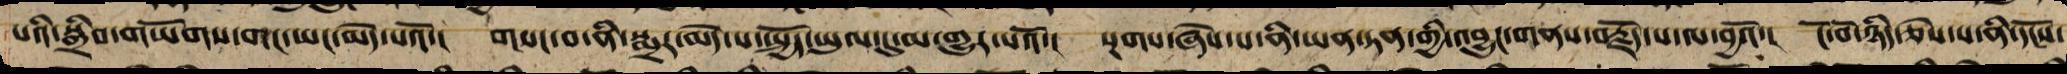པའི་སྒྲིབ་གཡོགས་གང་ཡང་མེད་པའོ་། གསང་བ་ནི་སྨྲར་མེད་པ་སྤྱོད་ཡུལ་དུ་མ་གྱུར་པའོ་། སྔགས་ཞེས་པ་ནི་ཡན་ཏན་གྱི་འབྱུང་གནས་བརྗོད་པ་ལ་བྱའོ་། ངོ་བོ་ཉིད་ཅེས་པ་ནི་དངོས་
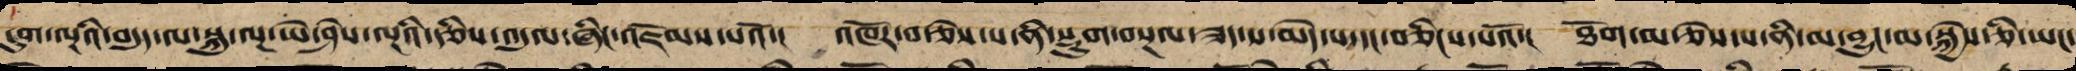དུག་ལྔའི་བདུད་ལ་སྐུ་ལྔ་ཡེ་ཤེས་ལྔའི་རྩིས་འདུལ་ཞིང་འཇོམས་པའོ་། འཁོར་བ་ཅེས་པ་ནི་སྡུག་བསྔལ་ཟད་པ་མེད་པ་དང་བཅིངས་པའོ་། ཐོག་མ་ཅེས་པ་ནི་མ་བྱུང་མ་སྐྱེས་ཅི་ཡང་
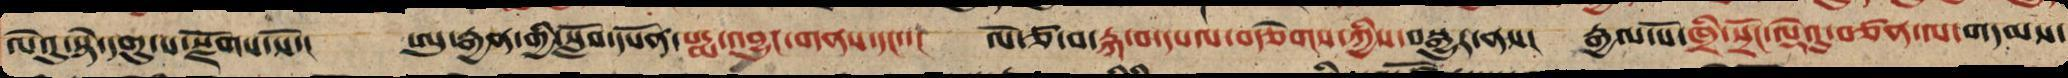ལེའུ་སྟེ་དགུ་པ་རྫོགས་སོ་།། ཨུ་རྒྱན་གྱི་སློབ་དཔོན་པདྨ་འབྱུང་གནས་དང་་། ལོ་ཙ་བ་རྐ་བ་དཔལ་བརྩེགས་ཀྱིས་བསྒྱུར་ནས། རྒྱལ་པོ་ཁྲི་སྲོང་ལྡེའུ་བཙན་ལ་གདམས་
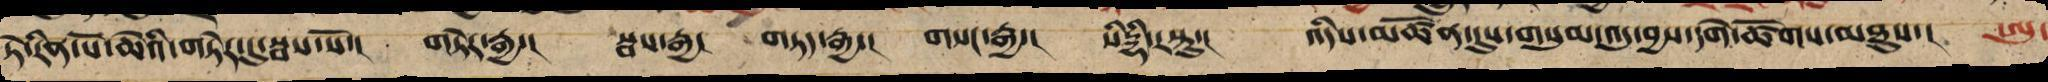ཏེ་རིན་པོ་ཆེའི་གཏེར་དུ་སྦས་སོ་། གཏེར་རྒྱ་། སྦས་རྒྱ། གཏད་རྒྱ་། གསང་རྒྱ་།། སིདྡྷི་རསྟུ་། འདིས་མཚོན་དུས་གསུམ་འདུ་བྱས་དགེ་ཚོགས་མཐུས་། ཨུ་
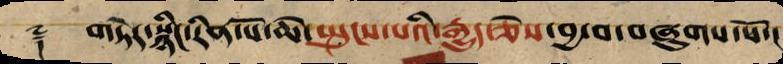༈ གཏེར་སྙིང་རིན་པོ་ཆེ་སྤུངས་པའི་རྒྱུད་ཅེས་བྱ་བ་བཞུགས་སོ་།
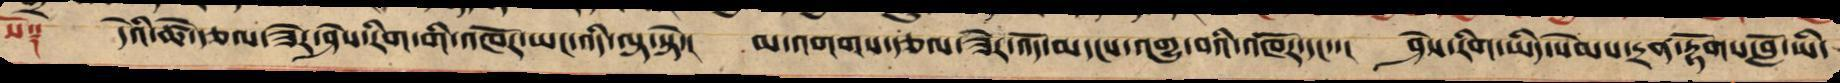སོ༑ དེའི་ཚེ་རྩལ་ཟེར་ཤེས་རིག་གི་འཁོར་ཡང་འདི་ལྟ་སྟེ་། མ་འགགས་རྩལ་ཟེར་འོད་མདངས་འགྱུ་བའི་འཁོར་དང་་། ཤེས་རིག་ཡིད་སེམས་དྲན་རྟོགས་བློ་ཡི་
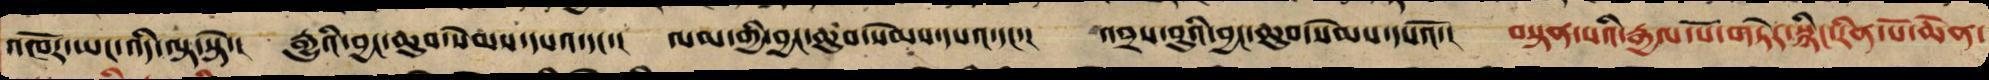འཁོར་ཡང་འདི་ལྟ་སྟེ་། རྒྱུའི་བྱང་ཆུབ་སེམས་དཔའ་དང་། ལམ་གྱི་བྱང་ཆུབ་སེམས་དཔའ་དང་། འབྲས་བུའི་བྱང་ཆུབ་སེམས་དཔའོ་། བསྟན་པའི་རྒྱལ་པོ་གཏེར་སྙིང་རིན་པོ་ཆེན་
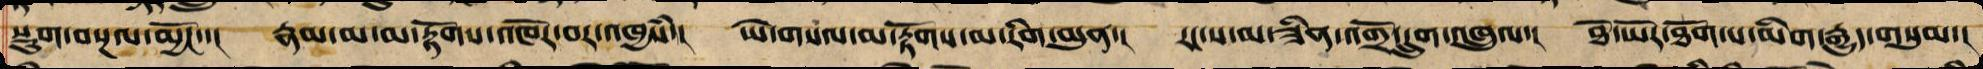སྡུག་བསྔལ་མྱོང་་། རྣམ་མ་མ་རྟོགས་འཁོར་བར་འཁྱཾས་། ཡེ་གསལ་མ་རྟོགས་མ་རིག་མུན་། རང་ས་མ་ཟིན་འགྲོ་དྲུག་འཁྲུལ་། ཐོ་ཡོར་ཐོག་པ་མིག་རྒྱུད་གསུམ་།
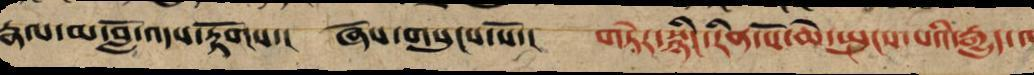རྣལ་མ་བློ་འདས་རྟོགས་། ཞེས་གསུངས་སོ་། གཏེར་སྙིང་རིན་པོ་ཆེ་སྤུངས་པའི་རྒྱུད་
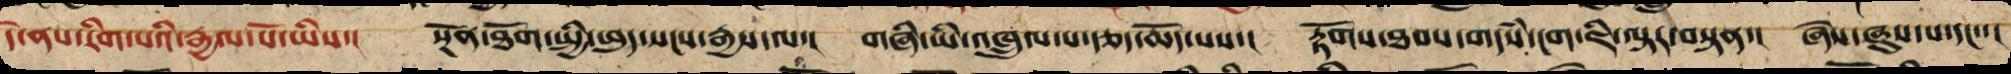དེ་ནས་རིག་པའི་རྒྱལ་པོ་ཡིས་། སྔོན་ཐོག་སྤྱི་ཕུད་སངས་རྒྱས་ལ་། གཞི་ཡི་འཁྲུལ་པ་རྩད་ཆོད་པས་། རྟོགས་ཐབས་གདཾས་ངག་ཇི་ལྟར་བསྟན་། ཞེས་ཞུས་པ་དང་་།
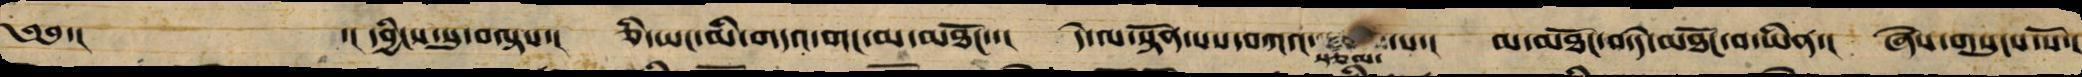༄༅། །དབྱིངས་སུ་བལྟས། །ཅི་ཡང་མི་གདའ་གང་མ་མཐོང་། །དེ་ལ་སྟོན་པས་བཀའ་སྩལ་པ། །མ་མཐོང་བ་དེ་མཐོང་བ་ཡིན། །ཞེས་གསུངས་སོ། །
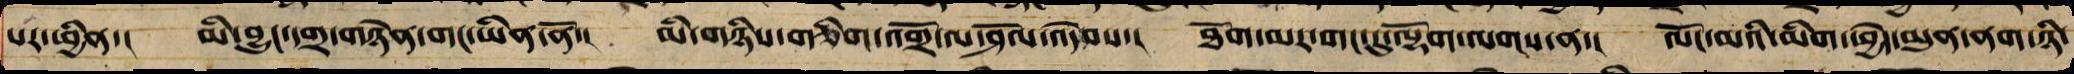པར་ཕྱིན་། མི་བྱུང་དགྲ་གཉེན་གང་ཡིན་ནོ་། མི་གཉིས་གཅིག་འགྲོ་ལ་ཤོལ་འདེབས་། ཐོག་མར་གང་དུ་ལྡོག་ལགས་ན་། ལོང་མའི་མིག་ཕྱེད་མུན་ནག་ཉི་
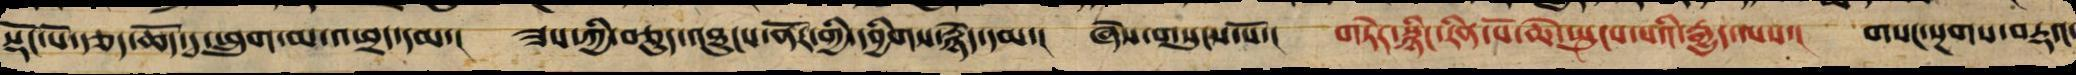སྡོང་པོ་རྩད་ཆོད་དྭ་ཕྲུག་མ་ཕྲད་དམ་། ཟས་ཀྱི་བཅུད་འཐུངས་ནོར་གྱི་དབྱིག་རྙེད་དམ་། ཞེས་གསུངས་སོ་། གཏེར་སྙིང་རིན་པོ་ཆེ་སྤུངས་པའི་རྒྱུད་ལས་། གསང་སྔགས་བརྡའ
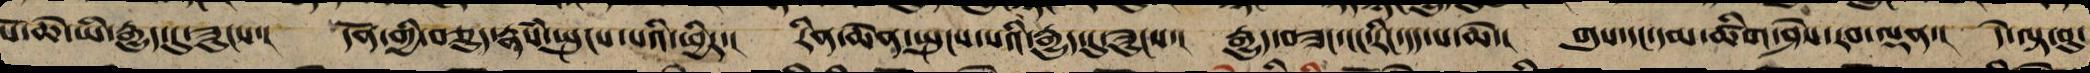པོ་ཆེ་ཡི་རྒྱུད་དུ་ཟུངས་། དོན་གྱི་བཅུད་རྣཾས་སྤུངས་པའི་ཕྱིར་། རིན་ཆེན་སྤུངས་པའི་རྒྱུད་དུ་ཟུངས་། རྒྱུད་བཟང་ངང་རིང་དད་པ་ཆེ་། གུས་དང་དམ་ཚིག་ཤེས་རབ་ལྡན་། དེ་ལྟ་བུ་
